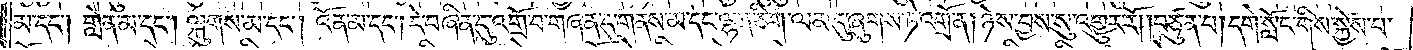མ་དང༌། གླེན་མ་དང༌། ལྐུགས་མ་དང༌། འོན་མ་དང༌། དེ་བཞིན་དུ་འགྲོ་བ་གཞན་དུ་གནས་མ་དང་ལྷན་ཅིག་ལམ་དུ་ཞུགས་ཏེ་འགྲོ་ན། ཉེས་བྱས་སུ་འགྱུར་རོ། །བཙུན་པ། དགེ་སློང་གིས་སྐྱེས་པ་
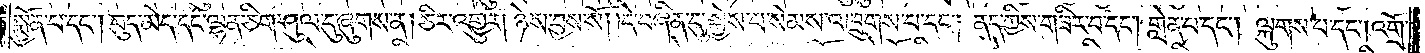སྨྱོན་པ་དང༌། བུད་མེད་དང་ལྷན་ཅིག་ཤུལ་དུ་ཞུགས་ན། ཅིར་འགྱུར། ཉེས་བྱས་སོ། །དེ་བཞིན་དུ་སྐྱེས་པ་སེམས་འཁྲུགས་པ་དང༌། ནད་ཀྱིས་གཟིར་བ་དང༌། གླེན་པ་དང༌། ལྐུགས་པ་དང༌། འགྲོ་
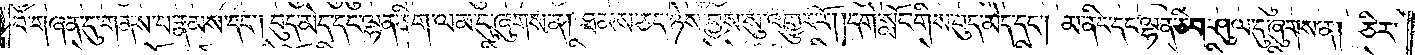བ་གཞན་དུ་གནས་པ་རྣམས་དང༌། བུད་མེད་དང་ལྷན་ཅིག་ལམ་དུ་ཞུགས་ན། ཐམས་ཅད་ཉེས་བྱས་སུ་འགྱུར་རོ། །དགེ་སློང་གིས་བུད་མེད་དང༌། མ་ནིང་དང་ལྷན་ཅིག་ཤུལ་དུ་ཞུགས་ན། ཅིར་
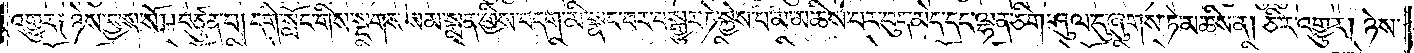འགྱུར༑ ཉེས་བྱས་སོ། །བཙུན་པ། དགེ་སློང་གིས་སྔགས་སམ་སྨན་གྱིས་བདག་མི་སྣང་བར་བསྒྱུར་ཏེ་སྐྱེས་པ་མ་མཆིས་པར་བུད་མེད་དང་ལྷན་ཅིག་ཤུལ་དུ་ཞུགས་ཏེ་མཆིས་ན། ཅིར་འགྱུར། ཉེས་
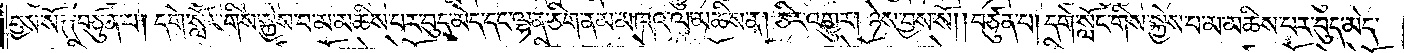བྱས་སོ༑ ༑བཙུན་པ། དགེ་སློང་གིས་སྐྱེས་པ་མ་མཆིས་པར་བུད་མེད་དང་ལྷན་ཅིག་ནམ་མཁའ་ལ་མཆིས་ན། ཅིར་འགྱུར། ཉེས་བྱས་སོ། །བཙུན་པ། དགེ་སློང་གིས་སྐྱེས་པ་མ་མཆིས་པར་བུད་མེད་
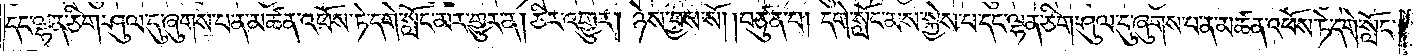དང་ལྷན་ཅིག་ཤུལ་དུ་ཞུགས་པ་ན་མཚན་འཕོས་ཏེ་དགེ་སློང་མར་གྱུར་ན། ཅིར་འགྱུར། ཉེས་བྱས་སོ། །བཙུན་པ། དགེ་སློང་མས་སྐྱེས་པ་དང་ལྷན་ཅིག་ཤུལ་དུ་ཞུགས་པ་ན་མཚན་འཕོས་ཏེ་དགེ་སློང་
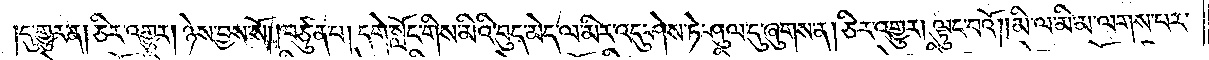།དུ་གྱུར་ན། ཅིར་འགྱུར། ཉེས་བྱས་སོ། །བཙུན་པ། དགེ་སློང་གིས་མིའི་བུད་མེད་ལ་མིར་འདུ་ཤེས་ཏེ་ཤུལ་དུ་ཞུགས་ན། ཅིར་འགྱུར། ལྟུང་བའོ། །མི་ལ་མི་མ་ལགས་པར་
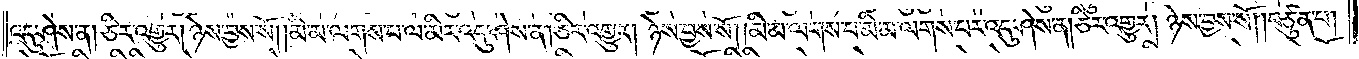འདུ་ཤེས་ན། ཅིར་འགྱུར། ཉེས་བྱས་སོ། །མི་མ་ལགས་པ་ལ་མིར་འདུ་ཤེས་ན། ཅིར་འགྱུར། ཉེས་བྱས་སོ། །མི་མ་ལགས་པ་མི་མ་ལགས་པར་འདུ་ཤེས་ན། ཅིར་འགྱུར། ཉེས་བྱས་སོ། །བཙུན་པ་
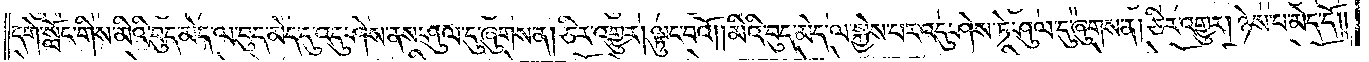དགེ་སློང་གིས་མིའི་བུད་མེད་ལ་བུད་མེད་དུ་འདུ་ཤེས་ནས་ཤུལ་དུ་ཞུགས་ན། ཅི་འགྱུར། ལྟུང་བའོ། །མིའི་བུད་མེད་ལ་སྐྱེས་པར་འདུ་ཤེས་ཏེ་ཤུལ་དུ་ཞུགས་ན། ཅིར་འགྱུར། ཉེས་པ་མེད་དོ༎
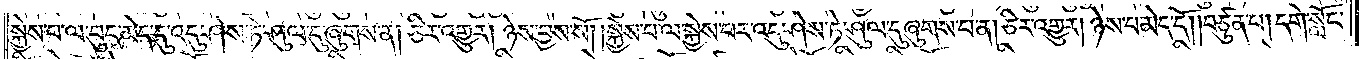སྐྱེས་པ་ལ་བུད་མད་ལ་བུད་མེད་དུ་འདུ་ཤེས་ནས་ཤུལ་དུ་ཞུགས་ན། ཅིར་འགྱུར། ཉེས་བྱས་སོ། །སྐྱེས་པ་ལ་སྐྱེས་པར་འདུ་ཤེས་ཏེ་ཤུལ་དུ་ཞུགས་པ་ན། ཅིར་འགྱུར། ཉེས་པ་མེད་དོ། །བཙུན་པ། དགེ་སློང་
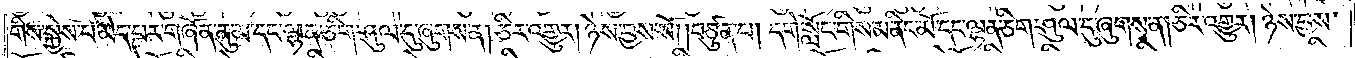གིས་སྐྱེས་པ་མེད་པར་གཞོན་ནུ་མ་དང་ལྷན་ཅིག་ཤུལ་དུ་ཞུགས་ན། ཅིར་འགྱུར། ཉེས་བྱས་སོ། །བཙུན་པ། དགེ་སློང་གིས་མ་ནིང་མོ་དང་ལྷན་ཅིག་ཤུལ་དུ་ཞུགས་ན། ཅིར་འགྱུར། ཉེས་བྱས་
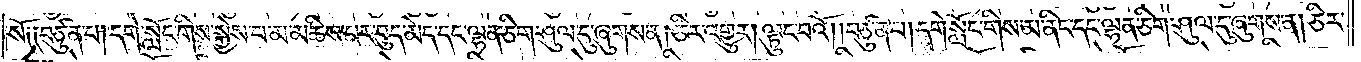སོ༑ ༑བཙུན་པ། དགེ་སློང་གིས་སྐྱེས་པ་མ་མཆིས་པར་བུད་མེད་དང་ལྷན་ཅིག་ཤུལ་དུ་ཞུགས་ན། ཅིར་འགྱུར། ལྟུང་བའོ། །བཙུན་པ། དགེ་སློང་གིས་མ་ནིང་དང་ལྷན་ཅིག་ཤུལ་དུ་ཞུགས་ན། ཅིར་
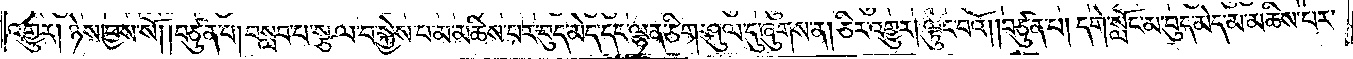འགྱུར། ཉེས་བྱས་སོ། །བཙུན་པ། བསླབ་པ་སྩལ་པ་སྐྱེས་པ་མ་མཆིས་པར་བུད་མེད་དང་ལྷན་ཅིག་ཤུལ་དུ་ཞུགས་ན། ཅིར་འགྱུར། ལྟུང་བའོ། །བཙུན་པ། དགེ་སློང་མ་བུད་མེད་མ་མཆིས་པར་
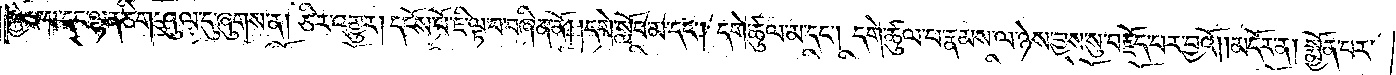སྐྱེས་པ་དང་ལྷན་ཅིག་ཤུལ་དུ་ཞུགས་ན། ཅིར་འགྱུར། དངོས་པོ་ཇི་ལྟ་བ་བཞིན་ནོ། །དགེ་སློབ་མ་དང༌། དགེ་ཚུལ་མ་དང༌། དགེ་ཚུལ་ཕ་རྣམས་ལ་ཉེས་བྱས་སུ་བརྗོད་པར་བྱའོ།    །མདོར་ན། སྨྱོན་པར་
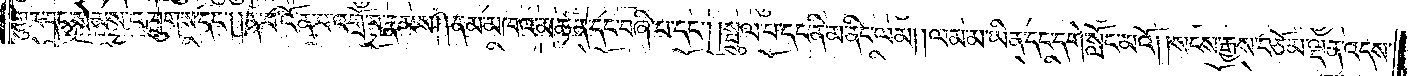གྱུར་དང༌། སེམས་འཁྲུགས་དང༌། །ན་བ་འོན་པ་འགྲོ་བ་རྣམས། ནམ་མཁའ་མཚན་དང་བཞི་པ་དང༌། །སྤྲུལ་པ་དང་ནི་མ་ནིང་ལམ། །ལམ་མ་ཡིན་དང་དགེ་སློང་མའོ། །སངས་རྒྱས་བཅོམ་འདས་
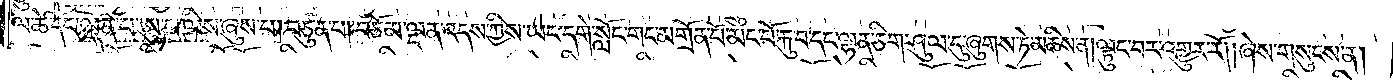ལ་ཚེ་དང་ལྡན་པ་ཨུ་པ་ལིས་ཞུས་པ། བཙུན་པ། བཅོམ་ལྡན་འདས་ཀྱིས་ཡང་དགེ་སློང་གང་མགོན་པོ་མང་པོ་རྐུ་བ་དང་ལྷན་ཅིག་ཤུལ་དུ་ཞུགས་མཆིས་ན། ལྟུང་བར་འགྱུར་རོ། །ཞེས་གསུངས་ན།
